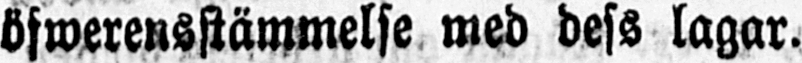öfwerensstämmelse med dess lagar.
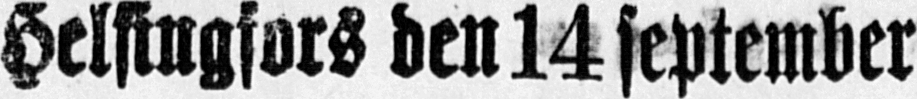Helsingfors den 14 september
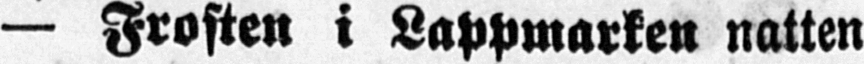— Frosten i Lappmarken natten
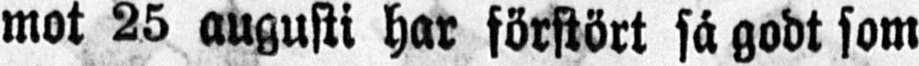mot 25 augusti har förstört så godt som
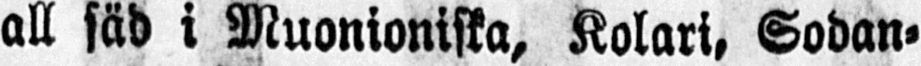all säd i Muonioniska, Kolari, Sodan-
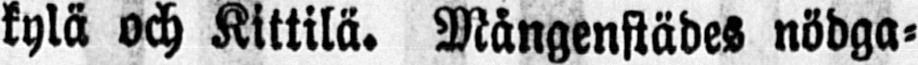kylä och Kittilä. Mångenstädes nödga-
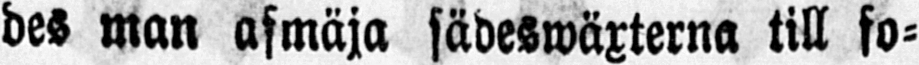des man afmäja sädeswäxterna till fo-
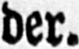der.
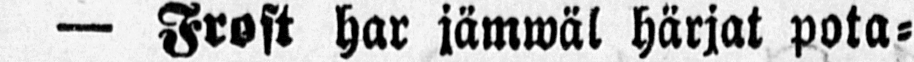- Frost har jämwäl härjat pota-
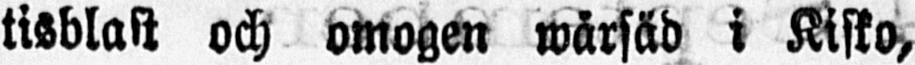tisblast och omogen wårsäd i Kisko,
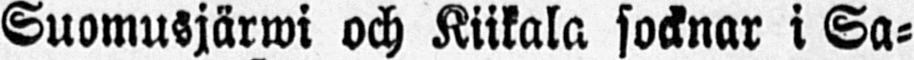Suomusjärwi och Kiikala socknar i Sa-
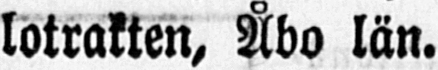lotrakten, Åbo län.
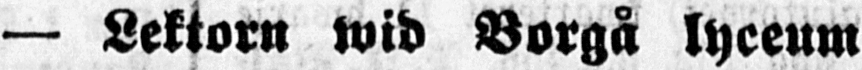— Lektorn wid Borgå lyceum
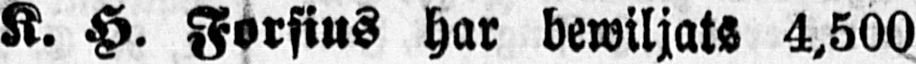K. H. Forsius har bewiljats 4,500
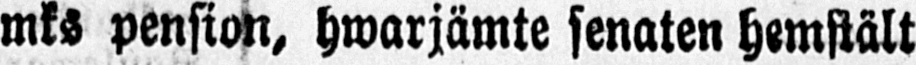mks pension, hwarjämte senaten hemstält
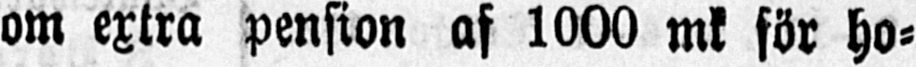om extra pension af 1000 mk för ho-
